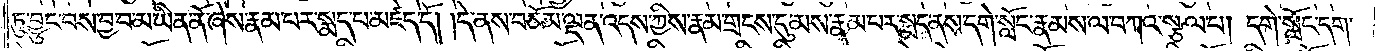ཏུ་བྱུང་བས་བྱ་བ་མ་ཡིན་ནོ་ཞེས་རྣམ་པར་སྨད་པ་མཛད་དོ། །དེ་ནས་བཅོམ་ལྡན་འདས་ཀྱིས་རྣམ་གྲངས་དུ་མས་རྣམ་པར་སྨད་ནས་དགེ་སློང་རྣམས་ལ་བཀའ་སྩལ་པ། དགེ་སློང་དག་
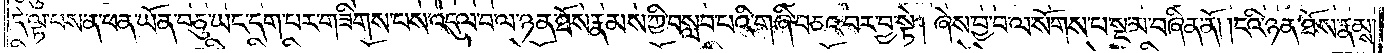དེ་ལྟ་བས་ན་ཕན་ཡོན་བཅུ་ཡང་དག་པར་གཟིགས་པས་འདུལ་བ་ལ་ཉན་ཐོས་རྣམས་ཀྱི་བསླབ་པའི་གཞི་བཅའ་བར་བྱ་སྟེ། ཞེས་བྱ་བ་ལ་སོགས་པ་སྔ་མ་བཞིན་ནོ། །ངའི་ཉན་ཐོས་རྣམས་
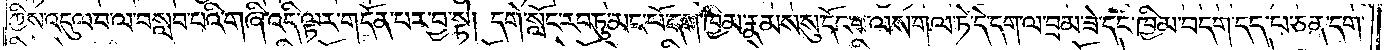ཀྱིས་འདུལ་བ་ལ་བསླབ་པའི་གཞི་འདི་ལྟར་གདོན་པར་བྱ་སྟེ། དགེ་སློང་རབ་ཏུ་མང་པོ་དག་ཁྱིམ་རྣམས་སུ་དོང་བ་ལས་གལ་ཏེ་དེ་དག་ལ་བྲམ་ཟེ་དང་ཁྱིམ་བདག་དད་པ་ཅན་དག་
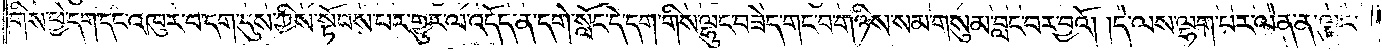གིས་ཕྱེ་དག་དང་འཁུར་བ་དག་དུས་ཀྱིས་སྟོབས་པར་གྱུར་ལ་འདོད་ན་དགེ་སློང་དེ་དག་གིས་ལྷུང་བཟེད་གང་བ་གཉིས་སམ་གསུམ་བླང་བར་བྱའོ། །དེ་ལས་ལྷག་པར་ལེན་ན་ལྟུང་
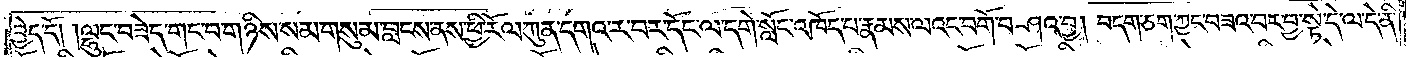བྱེད་དོ། །ལྷུང་བཟེད་གང་བ་གཉིས་སམ་གསུམ་བླངས་ནས་ཕྱི་རོལ་ཀུན་དགའ་ར་བར་དོང་ལ་དགེ་སློང་འཁོད་པ་རྣམས་ལའང་བགོ་བཤའ་བྱ། བདག་ཅག་ཀྱང་བཟའ་བར་བྱ་སྟེ་དེ་ལ་དེ་ནི་
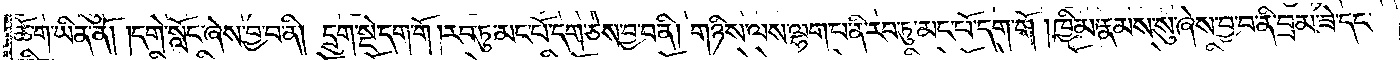ཆོ་ག་ཡིན་ནོ། །དགེ་སློང་ཞེས་བྱ་བ་ནི། དྲུག་སྡེ་དག་གོ །རབ་ཏུ་མང་པོ་དག་ཅེས་བྱ་བ་ནི། གཉིས་ལས་ལྷག་པ་ནི་རབ་ཏུ་མང་པོ་དག་གོ །ཁྱིམ་རྣམས་སུ་ཞེས་བྱ་བ་ནི་བྲམ་ཟེ་དང་
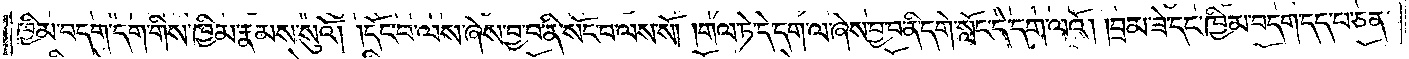ཁྱིམ་བདག་དག་གིས་ཁྱིམ་རྣམས་སུའོ། །དོང་བ་ལས་ཞེས་བྱ་བ་ནི་སོང་བ་ལས་སོ། །གལ་ཏེ་དེ་དག་ལ་ཞེས་བྱ་བ་ནི་དགེ་སློང་དེ་དག་ལའོ། །བྲམ་ཟེ་དང་ཁྱིམ་བདག་དད་པ་ཅན་
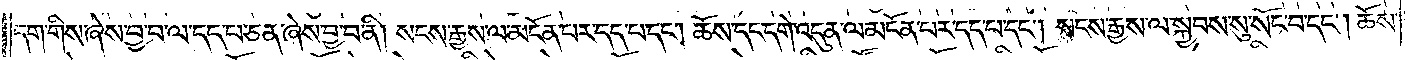དག་གིས་ཞེས་བྱ་བ་ལ་དད་པ་ཅན་ཞེས་བྱ་བ་ནི། སངས་རྒྱས་ལ་མངོན་པར་དད་པ་དང༌། ཆོས་དང་དགེ་འདུན་ལ་མངོན་པར་དད་པ་དང༌། སངས་རྒྱས་ལ་སྐྱབས་སུ་སོང་བ་དང༌། ཆོས་
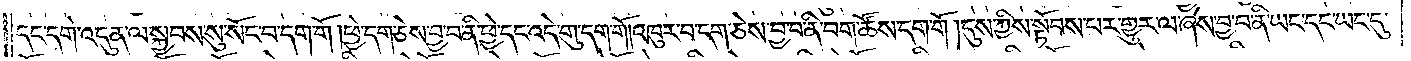དང་དགེ་འདུན་ལ་སྐྱབས་སུ་སོང་བ་དག་གོ །ཕྱེ་དག་ཅེས་བྱ་བ་ནི་ཕྱེ་དང་འདེ་གུ་དག་གོ།འཁུར་བ་དག་ཅེས་བྱ་བ་ནི་བག་ཚོས་དག་གོ །དུས་ཀྱིས་སྟོབས་པར་གྱུར་ལ་ཞེས་བྱ་བ་ནི་ཡང་དང་ཡང་དུ་
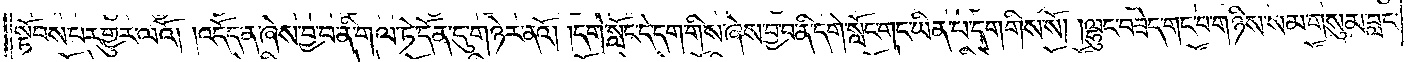སྟོབས་པར་གྱུར་ལའོ། །འདོད་ན་ཞེས་བྱ་བ་ནི་གལ་ཏེ་དོན་དུ་གཉེར་ནའོ། །དགེ་སློང་དེ་དག་གིས་ཞེས་བྱ་བ་ནི་དགེ་སློང་གང་ཡིན་པ་དག་གིས་སོ། །ལྷུང་བཟེད་གང་བ་གཉིས་སམ་གསུམ་བླང་
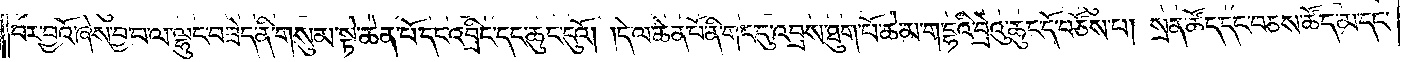བར་བྱའོ་ཞེས་བྱ་བ་ལ་ལྷུང་བཟེད་ནི་གསུམ་སྟེ་ཆེན་པོ་དང་འབྲིང་དང་ཆུང་ངུའོ། །དེ་ལ་ཆེན་པོ་ནི་གང་དུ་འབྲས་ཐུག་པོ་ཆེ་མ་ག་དྷའི་བྲེའུ་ཆུང་དོ་བཙོས་པ། སྲན་ཚོད་དང་བཅས་ཚོད་མ་དང་
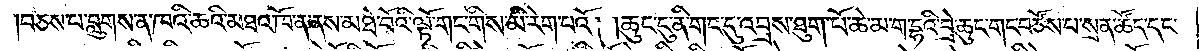བཅས་པ་བླུགས་ན་ཁའི་ཆའི་མཐའ་ཁོ་ན་ནས་མཐེ་བོའི་ལྟོ་གང་གིས་མི་རེག་པའོ། །ཆུང་ངུ་ནི་གང་དུ་འབྲས་ཐུག་པོ་ཆེ་མ་ག་དྷའི་བྲེ་ཆུང་གང་བཙོས་པ་སྲན་ཚོད་དང་
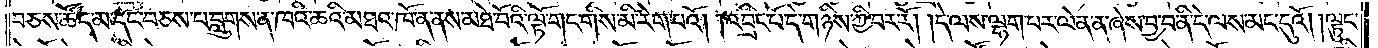བཅས་ཚོད་མ་དང་བཅས་པ་བླུགས་ན་ཁའི་ཆའི་མཐའ་ཁོ་ན་ནས་མཐེ་བོའི་ལྟོ་གང་གིས་མི་རེག་པའོ། །འབྲིང་པོ་དེ་གཉིས་ཀྱི་བར་རོ། །དེ་ལས་ལྷག་པར་ལེན་ན་ཞེས་བྱ་བ་ནི་དེ་ལས་མང་དུའོ། །ལྟུང་
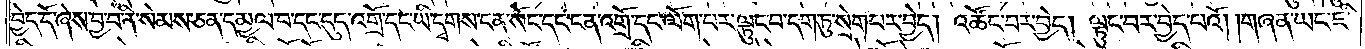བྱེད་དོ་ཞེས་བྱ་བ་ནི་སེམས་ཅན་དམྱལ་བ་དང་དུད་འགྲོ་དང་ཡི་དྭགས་ངན་སོང་དང་ངན་འགྲོ་དང་ལོག་པར་ལྟུང་བ་དག་ཏུ་སྲེག་པར་བྱེད། འཚོང་བར་བྱེད། ལྟུང་བར་བྱེད་པའོ། །གཞན་ཡང་ཇི་
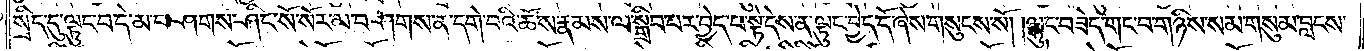སྲིད་དུ་ལྟུང་བ་དེ་མ་བཤགས་ཤིང་སོ་སོར་མ་བཤགས་ན་དགེ་བའི་ཆོས་རྣམས་ལ་སྒྲིབ་པར་བྱེད་པ་སྟེ་དེས་ན་ལྟུང་བྱེད་དོ་ཞེས་གསུངས་སོ། །ལྷུང་བཟེད་གང་བ་གཉིས་སམ་གསུམ་བླངས་
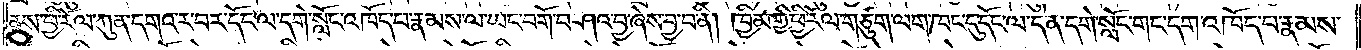ནས་ཕྱི་རོལ་ཀུན་དགའ་ར་བར་དོང་ལ་དགེ་སློང་འཁོད་པ་རྣམས་ལ་ཡང་བགོ་བཤའ་བྱ་ཞེས་བྱ་བ་ནི། ཁྱིམ་གྱི་ཕྱི་རོལ་གཙུག་ལག་ཁང་དུ་དོང་ལ་དེ་ན་དགེ་སློང་གང་དག་འཁོད་པ་རྣམས་
